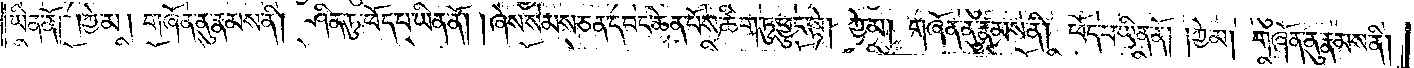ཡིན་ནོ། །ཀྱེ་མ། གཞོན་ནུ་རྣམས་ནི། ཤིན་ཏུ་ཕོད་པ་ཡིན་ནོ། །ཞེས་སེམས་ཅན་དབང་ཆེན་པོས་ཚིག་ཏུ་ཕྱུང་སྟེ། ཀྱེ་མ། གཞོན་ནུ་རྣམས་ནི། ཕོད་པ་ཡིན་ནོ། །ཀྱེ་མ། གཞོན་ནུ་རྣམས་ནི།
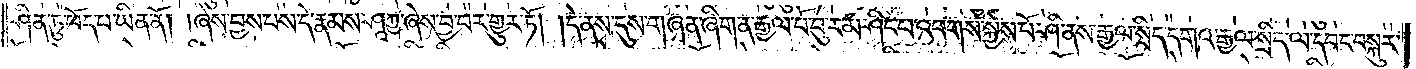ཤིན་ཏུ་ཕོད་པ་ཡིན་ནོ། །ཞེས་བྱས་པས་དེ་རྣམས་ཤཱཀྱ་ཞེས་བྱ་བར་གྱུར་ཏོ། །དེ་ནས་དུས་གཞན་ཞིག་ན་རྒྱལ་པོ་བུ་རམ་ཤིང་པ་འཕགས་སྐྱེས་པོ་ཤི་ནས་རྒྱལ་སྲིད་དགའ་རྒྱལ་སྲིད་ལ་དབང་བསྐུར་
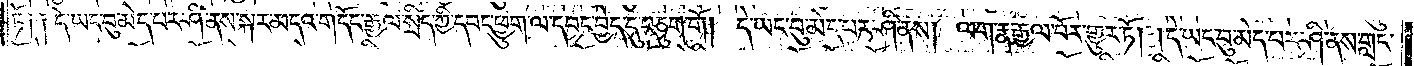ཏོ། །དེ་ཡང་བུ་མེད་པར་ཤི་ནས་སྐར་མདའ་གདོང་རྒྱལ་སྲིད་ཀྱི་དབང་ཕྱུག་ལ་དབང་བྱེད་དུ་བཅུག་གོ །དེ་ཡང་བུ་མེད་པར་ཤི་ནས། ལག་རྣ་རྒྱལ་པོར་གྱུར་ཏོ། །དེ་ཡང་བུ་མེད་པར་ཤི་ནས་གླང་
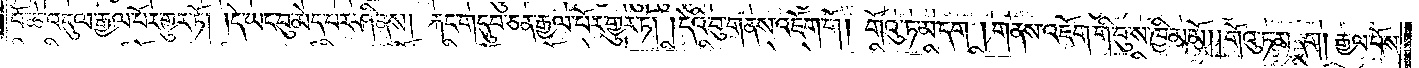པོ་ཆེ་འདུལ་རྒྱལ་པོར་གྱུར་ཏོ། །དེ་ཡང་བུ་མེད་པར་ཤི་ནས། རྐང་གདུབ་ཅན་རྒྱལ་པོར་གྱུར་ཏོ། །དེའི་བུ་གནས་འཇོག་གོ །གོའུ་ཏ་མ་དག །གནས་འཇོག་གི་བུ་ས་ཁྱིམ་མོ། །གོའུ་ཏ་མ་དག །རྒྱལ་པོས་
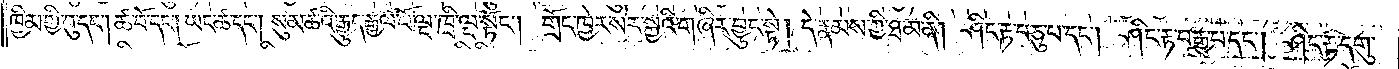ཁྱིམ་གྱི་བུ་དང༌། ཚ་བོ་དང༌། ཡང་ཚ་དང༌། སུམ་ཚའི་རྒྱུད་རྒྱལ་པོ་ལྔ་ཁྲི་ལྔ་སྟོང༌། གྲོང་ཁྱེར་སེར་སྐྱའི་གཞིར་བྱུང་སྟེ། དེ་རྣམས་ཀྱི་ཐ་མ་ནི། ཤིང་རྟ་བཅུ་པ་དང༌། ཤིང་རྟ་བརྒྱ་པ་དང༌། ཤིང་རྟ་དགུ་
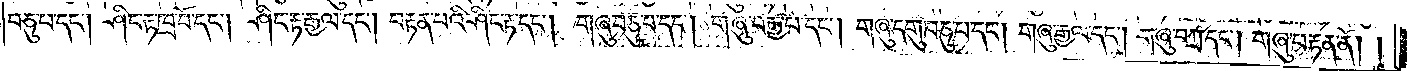བཅུ་པ་དང༌། ཤིང་རྟ་ཁྲ་བོ་དང༌། ཤིང་རྟ་རྒྱལ་དང༌། བརྟན་པའི་ཤིང་རྟ་དང༌། གཞུ་བཅུ་པ་དང༌། གཞུ་བརྒྱ་པ་དང༌། གཞུ་དགུ་བཅུ་པ་དང༌། གཞུ་རྒྱལ་དང༌། གཞུ་བཀྲ་དང༌། གཞུ་བརྟན་ནོ། །
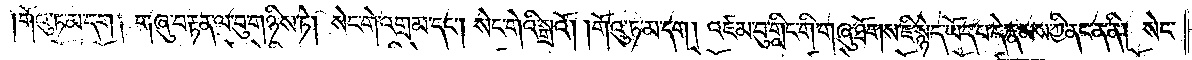གོའུ་ཏ་མ་དག །གཞུ་བརྟན་ལ་བུ་གཉིས་ཏེ། སེང་གེ་འགྲམ་དང༌། སེང་གེའི་སྒྲའོ། །གོའུ་ཏ་མ་དག །འཛམ་བུ་གླིང་གི་གཞུ་ཐོགས་ཇི་སྙེད་ཡོད་པ་དེ་རྣམས་ཀྱི་ནང་ན་ནི། སེང་
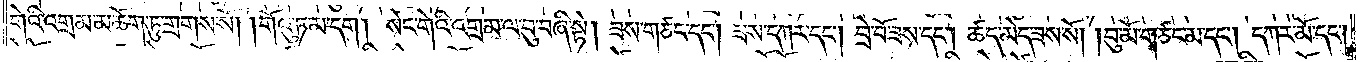གེའི་འགྲམ་མཆོག་ཏུ་གྲགས་སོ། །གོའུ་ཏ་མ་དག །སེང་གེའི་འགྲམ་ལ་བུ་བཞི་སྟེ། ཟས་གཙང་དང༌། ཟས་དཀར་དང༌། བྲེ་བོ་ཟས་དང༌། ཚད་མེད་ཟས་སོ། །བུ་མོ་གཙང་མ་དང༌། དཀར་མོ་དང༌།
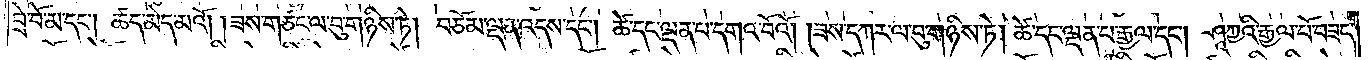བྲེ་བོ་མ་དང༌། ཚད་མེད་མའོ། །ཟས་གཙང་ལ་བུ་གཉིས་ཏེ། བཅོམ་ལྡན་འདས་དང༌། ཚེ་དང་ལྡན་པ་དགའ་བོའོ། །ཟས་དཀར་ལ་བུ་གཉིས་ཏེ། ཚེ་དང་ལྡན་པ་རྒྱལ་དང༌། ཤཱཀྱའི་རྒྱལ་པོ་བཟང་
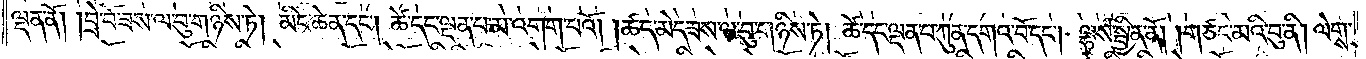ལྡན་ནོ། །བྲེ་བོ་ཟས་ལ་བུ་གཉིས་ཏེ། མིང་ཆེན་དང༌། ཚེ་དང་ལྡན་པ་མ་འགག་པའོ། །ཚད་མེད་ཟས་ལ་བུ་གཉིས་ཏེ། ཚེ་དང་ལྡན་པ་ཀུན་དགའ་བོ་དང༌། ལྷས་སྦྱིན་ནོ། །གཙང་མའི་བུ་ནི། ལེགས་
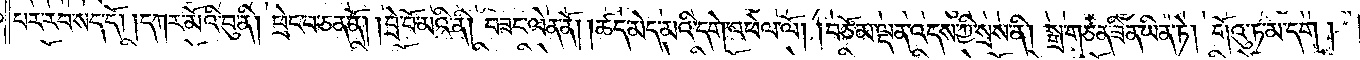པར་རབ་སད་དོ། །དཀར་མོའི་བུ་ནི། ཕྲེང་བ་ཅན་ནོ། །བྲེ་བོ་མའི་ནི། བཟང་ལེན་ནོ། །ཚད་མེད་མའི་དགེ་འཕེལ་ལོ། །བཅོམ་ལྡན་འདས་ཀྱི་སྲས་ནི། སྒྲ་གཅན་ཟིན་ཡིན་ཏེ། གོའུ་ཏ་མ་དག །
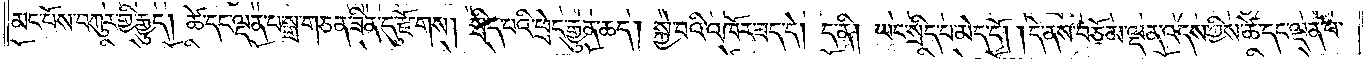མང་པོས་བཀུར་གྱི་རྒྱུད། ཚེ་དང་ལྡན་པ་སྒྲ་གཅན་ཟིན་དུ་རྫོགས། སྲིད་པའི་ཕྲེང་རྒྱུན་ཆད། སྐྱེ་བའི་འཁོར་ཟད་དེ། ད་ནི། ཡང་སྲིད་པ་མེད་དོ། །དེ་ནས་བཅོམ་ལྡན་འདས་ཀྱིས་ཚེ་དང་ལྡན་པ་
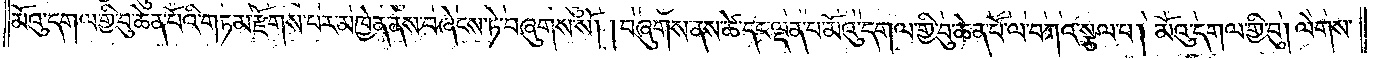མོའུ་དགལ་གྱི་བུ་ཆེན་པོའི་གཏམ་རྫོགས་པར་མཁྱེན་ནས་བཞེངས་ཏེ་བཞུགས་སོ། །བཞུགས་ནས་ཚེ་དང་ལྡན་པ་མོའུ་དགལ་གྱི་བུ་ཆེན་པོ་ལ་བཀའ་སྩལ་པ། མོའུ་དགལ་གྱི་བུ། ལེགས་
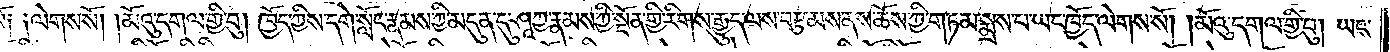སོ། །ལེགས་སོ། །མོའུ་དགལ་གྱི་བུ། ཁྱོད་ཀྱིས་དགེ་སློང་རྣམས་ཀྱི་མདུན་དུ་ཤཱཀྱ་རྣམས་ཀྱི་སྔོན་གྱི་རིགས་རྒྱུད་ལས་བརྩམས་ནས་ཆོས་ཀྱི་གཏམ་སྨྲས་པ་ཡང་ཁྱོད་ལེགས་སོ། །མོའུ་དགལ་གྱི་བུ། ཡང་
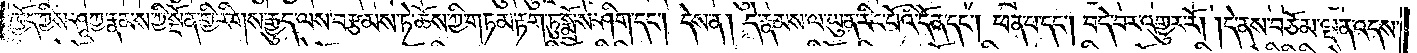ཁྱོད་ཀྱིས་ཤཱཀྱ་རྣམས་ཀྱི་སྔོན་གྱི་རིགས་རྒྱུད་ལས་བརྩམས་ཏེ་ཆོས་ཀྱི་གཏམ་རྟག་ཏུ་སྨྲོས་ཤིག་དང༌། དེས་ན། དེ་རྣམས་ལ་ཡུན་རིང་པོའི་དོན་དང༌། ཕན་པ་དང༌། བདེ་བར་འགྱུར་རོ། །དེ་ནས་བཅོམ་ལྡན་འདས་
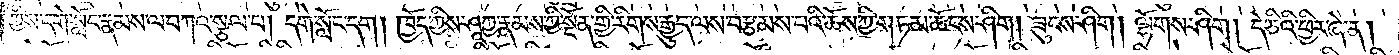ཀྱིས་དགེ་སློང་རྣམས་ལ་བཀའ་སྩལ་པ། དགེ་སློང་དག །ཁྱོད་ཀྱིས་ཤཱཀྱ་རྣམས་ཀྱི་སྔོན་གྱི་རིགས་རྒྱུད་ལས་བརྩམས་པའི་ཆོས་ཀྱི་གཏམ་ཆོངས་ཤིག །ཟུངས་ཤིག །ལྷོགས་ཤིག །དེ་ཅིའི་ཕྱིར་ཞེ་ན།
